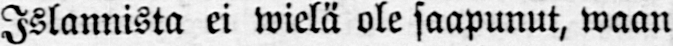Islannista ei wielä ole saapunut, waan
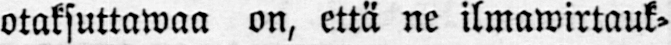otaksuttawaa on, että ne ilmawirtauk-
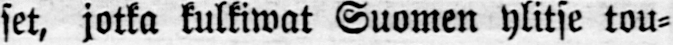set, jotka kulkiwat Suomen ylitse tou-
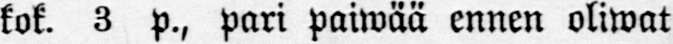kok. 3 p., pari paiwää ennen oliwat
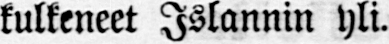kulkeneet Islannin yli.
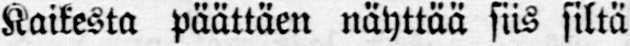Kaikesta päättäen näyttää siis siltä
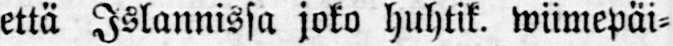että Islannissa joko huhtik. wiimepäi-
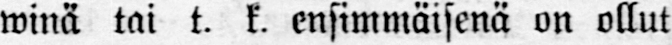winä tai t. k. ensimmräisenä on ollut
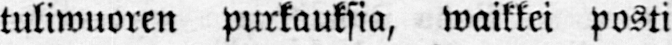tuliwuoren purkauksia, waikkei posti
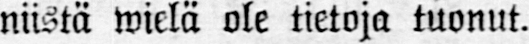niistä wielä ole tietoja tuonut.
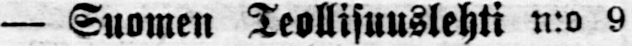— Suomen Teollisuuslehti n:o 9
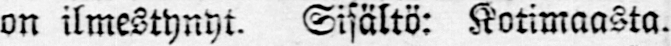on ilmestynyt. Sisältö: Kotimaasta.
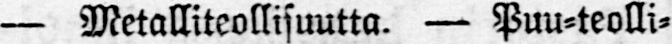— Metalliteollisuutta. — Puu-teolli-
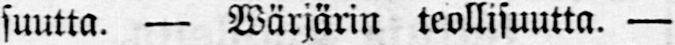suutta. — Wärjärin teollisuutta. —
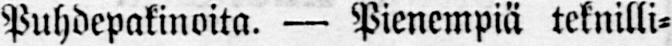Puhdepakinoita. — Pienempiä teknilli-
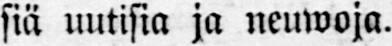siä uutisia ja neuwoja.
